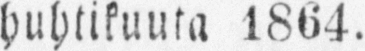huhtikuuta 1864.
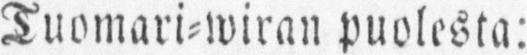Tuomari-wiran puolesta:
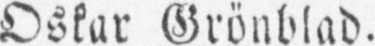Oskar Grönblad.
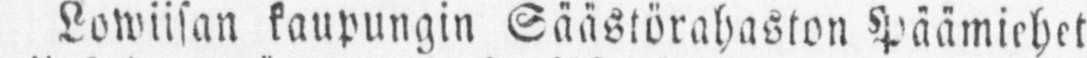Lowiisan kaupungin Säästörahaston Päämiehet
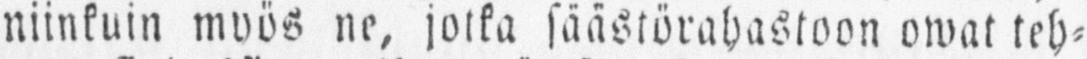niinkuin myös ne, jotka säästörahastoon owat teh-
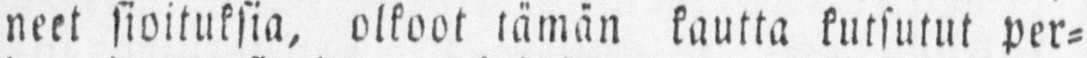neet sioituksia, olkoot tämän kautta kutsutut per-
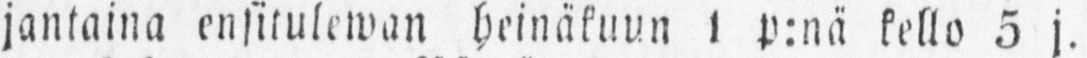jantaina ensitulewan heinäkuun 1 p:nä kello 5 j.
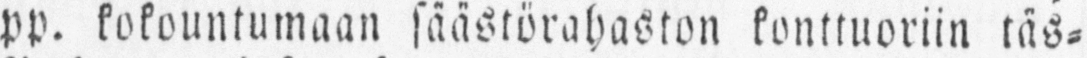pp. kokountumaan säästörahaston konttuoriin täs-
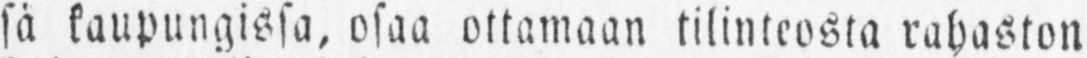sä kaupungissa, osaa ottamaan tilinteosta rahaston
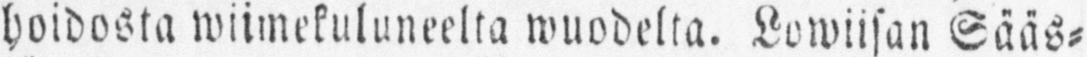hoidosta wiimekuluneelta wuodelta. Lowiisan Sääs-
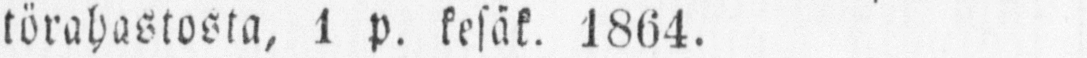törahastosta, 1 p. kesäk. 1864.
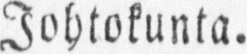Johtokunta.
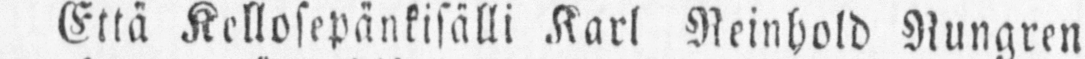Että Kellosepänkisälli Karl Reinhold Rungren
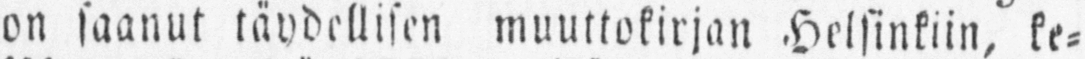on saanut täydellisen muuttokirjan Helsinkiin, ke-
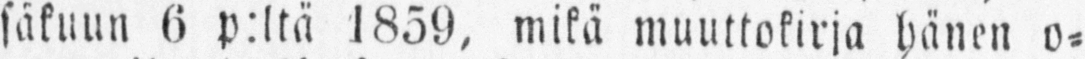säkuun 6 p:ltä 1859, mikä muuttokirja hänen o-
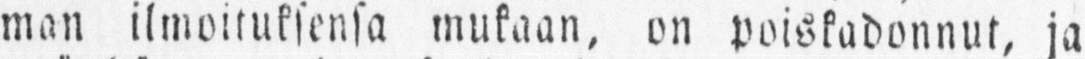man ilmoituksensa mukaan, on poiskadonnut, ja
